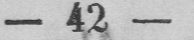— 42 —
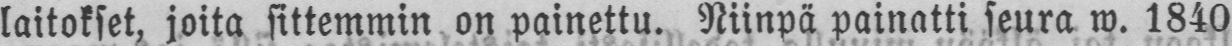laitokset, joita sittemmin on painettu. Niinpä painatti seura w. 1840
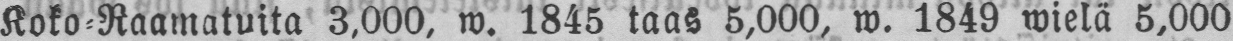Koko-Raamatuita 3.000, w. 1845 taas 5,000, w. 1849 wielä 5,000
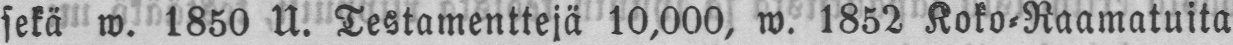sekä w. 1850 U. Testamenttejä 10,000, w. 1852 Koko-Raamatuita
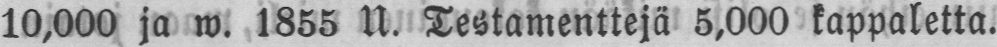10,000 ja w. 1855 U. Testamenttejä 5,000 kappaletta.
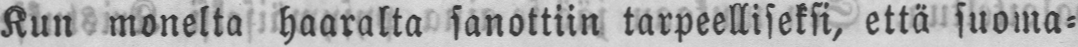Kun monelta haaralta sanottiin tarpeelliseksi, että suoma-
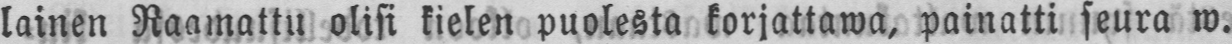lainen Raamattu olisi kielen puolesta korjattawa, painatti seura w.
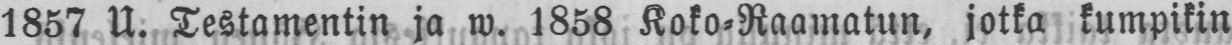1857 U. Testamentin ja w. 1858 Koko-Raamatun, jotka kumpikin
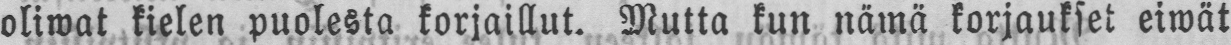oliwat kielen puolesta korjaillut. Mutta kun nämä korjaukset eiwät
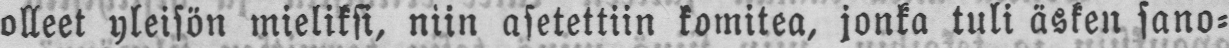olleet yleisön mieliksi, niin asetettiin komitea, jonka tuli äsken sano-
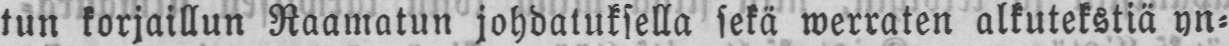tun korjaillun Raamatun johdatuksella sekä werraten alkutekstiä yn-
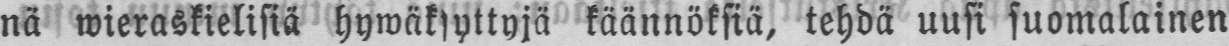nä wieraskielisiä hywäksyttyjä käännöksiä, tehdä uusi suomalainen
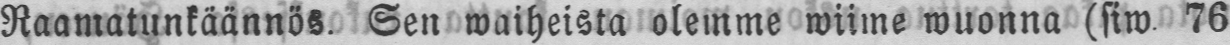Raamatunkäännös. Sen waiheista olemme wiime wuonna (siw. 76
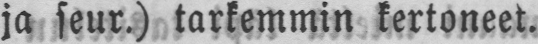ja seur.) tarkemmin kertoneet.
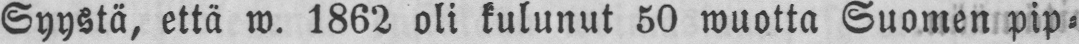Syystä, että w. 1862 oli kulunut 50 wuotta Suomen pip-
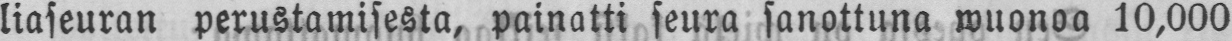liaseuran perustamisesta, painatti seura sanottuna wuonoa 10,000
